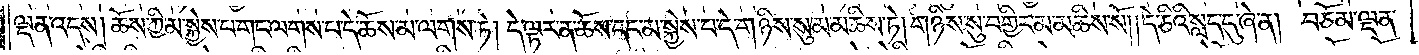ལྡན་འདས། ཆོས་ཀྱི་མ་སྐྱེས་པ་གང་ལགས་པ་དེ་ཆོས་མ་ལགས་ཏེ། དེ་ལྟར་ན་ཆོས་དང་མ་སྐྱེས་པ་དེ་གཉིས་སུ་མ་མཆིས་ཏེ། གཉིས་སུ་བགྱིར་མ་མཆིས་སོ། །དེ་ཅིའི་སླད་དུ་ཞེ་ན། བཅོམ་ལྡན་
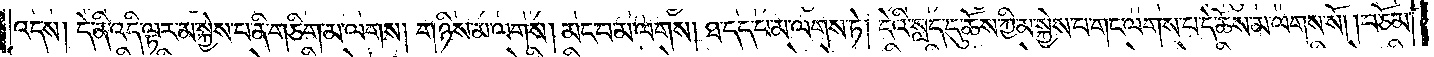འདས། དེ་ནི་འདི་ལྟར་མ་སྐྱེས་པ་ནི་གཅིག་མ་ལགས། གཉིས་མ་ལགས། མང་བ་མ་ལགས། ཐ་དད་པ་མ་ལགས་ཏེ། དེའི་སླད་དུ་ཆོས་ཀྱི་མ་སྐྱེས་པ་གང་ལགས་པ་དེ་ཆོས་མ་ལགས་སོ། །བཅོམ་
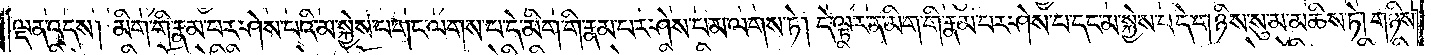ལྡན་འདས། མིག་གི་རྣམ་པར་ཤེས་པའི་མ་སྐྱེས་པ་གང་ལགས་པ་དེ་མིག་གི་རྣམ་པར་ཤེས་པ་མ་ལགས་ཏེ། དེ་ལྟར་ན་མིག་གི་རྣམ་པར་ཤེས་པ་དང་མ་སྐྱེས་པ་དེ་གཉིས་སུ་མ་མཆིས་ཏེ། གཉིས་
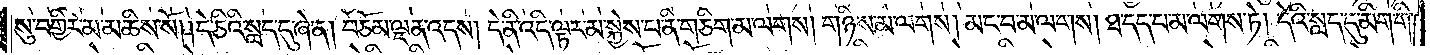སུ་བགྱིར་མ་མཆིས་སོ། །དེ་ཅིའི་སླད་དུ་ཞེ་ན། བཅོམ་ལྡན་འདས། དེ་ནི་འདི་ལྟར་མ་སྐྱེས་པ་ནི་གཅིག་མ་ལགས། གཉིས་མ་ལགས། མང་བ་མ་ལགས། ཐ་དད་པ་མ་ལགས་ཏེ། དེའི་སླད་དུ་མིག་གི་
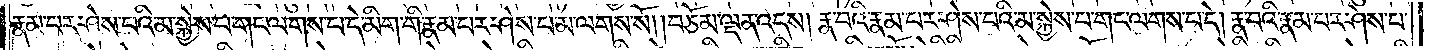རྣམ་པར་ཤེས་པའི་མ་སྐྱེས་པ་གང་ལགས་པ་དེ་མིག་གི་རྣམ་པར་ཤེས་པ་མ་ལགས་སོ། །བཅོམ་ལྡན་འདས། རྣ་བའི་རྣམ་པར་ཤེས་པའི་མ་སྐྱེས་པ་གང་ལགས་པ་དེ། རྣ་བའི་རྣམ་པར་ཤེས་པ་
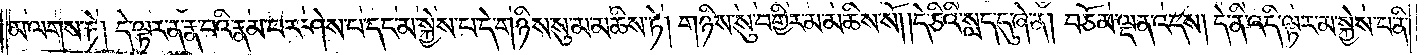མ་ལགས་ཏེ། དེ་ལྟར་ན་རྣ་བའི་རྣམ་པར་ཤེས་པ་དང་མ་སྐྱེས་པ་དེ་གཉིས་སུ་མ་མཆིས་ཏེ། གཉིས་སུ་བགྱིར་མ་མཆིས་སོ། །དེ་ཅིའི་སླད་དུ་ཞེ་ན། བཅོམ་ལྡན་འདས། དེ་ནི་འདི་ལྟར་མ་སྐྱེས་པ་ནི་
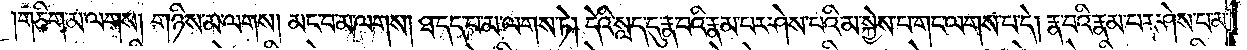གཅིག་མ་ལགས། གཉིས་མ་ལགས། མང་བ་མ་ལགས། ཐ་དད་པ་མ་ལགས་ཏེ། དེའི་སླད་དུ་རྣ་བའི་རྣམ་པར་ཤེས་པའི་མ་སྐྱེས་པ་གང་ལགས་པ་དེ། རྣ་བའི་རྣམ་པར་ཤེས་པ་མ་
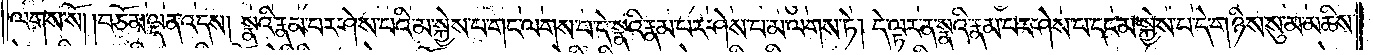ལགས་སོ། །བཅོམ་ལྡན་འདས། སྣའི་རྣམ་པར་ཤེས་པའི་མ་སྐྱེས་པ་གང་ལགས་པ་དེ་སྣའི་རྣམ་པར་ཤེས་པ་མ་ལགས་ཏེ། དེ་ལྟར་ན་སྣའི་རྣམ་པར་ཤེས་པ་དང་མ་སྐྱེས་པ་དེ་གཉིས་སུ་མ་མཆིས་
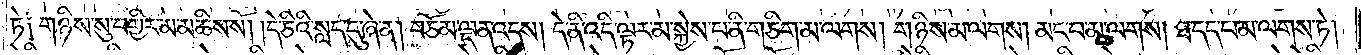ཏེ༑ གཉིས་སུ་བགྱིར་མ་མཆིས་སོ། །དེ་ཅིའི་སླད་དུ་ཞེ་ན། བཅོམ་ལྡན་འདས། དེ་ནི་འདི་ལྟར་མ་སྐྱེས་པ་ནི་གཅིག་མ་ལགས། གཉིས་མ་ལགས། མང་བ་མ་ལགས། ཐ་དད་པ་མ་ལགས་ཏེ།
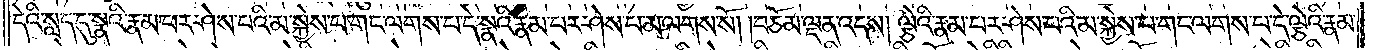དེའི་སླད་དུ་སྣའི་རྣམ་པར་ཤེས་པའི་མ་སྐྱེས་པ་གང་ལགས་པ་དེ་སྣའི་རྣམ་པར་ཤེས་པ་མ་ལགས་སོ། །བཅོམ་ལྡན་འདས། ལྕེའི་རྣམ་པར་ཤེས་པའི་མ་སྐྱེས་པ་གང་ལགས་པ་དེ་ལྕེའི་རྣམ་
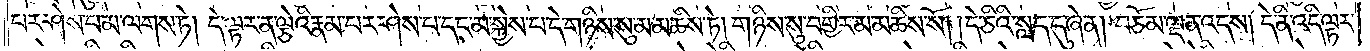པར་ཤེས་པ་མ་ལགས་ཏེ། དེ་ལྟར་ན་ལྕེའི་རྣམ་པར་ཤེས་པ་དང་མ་སྐྱེས་པ་དེ་གཉིས་སུ་མ་མཆིས་ཏེ། གཉིས་སུ་བགྱིར་མ་མཆིས་སོ། །དེ་ཅིའི་སླད་དུ་ཞེ་ན། བཅོམ་ལྡན་འདས། དེ་ནི་འདི་ལྟར་
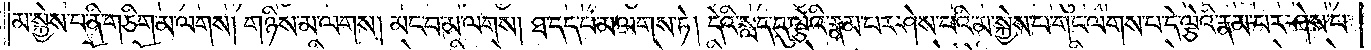མ་སྐྱེས་པ་ནི་གཅིག་མ་ལགས། གཉིས་མ་ལགས། མང་བ་མ་ལགས། ཐ་དད་པ་མ་ལགས་ཏེ། དེའི་སླད་དུ་ལྕེའི་རྣམ་པར་ཤེས་པའི་མ་སྐྱེས་པ་གང་ལགས་པ་དེ་ལྕེའི་རྣམ་པར་ཤེས་པ་
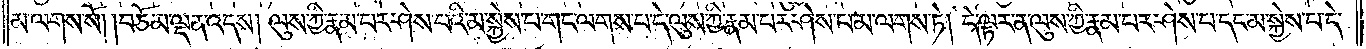མ་ལགས་སོ། །བཅོམ་ལྡན་འདས། ལུས་ཀྱི་རྣམ་པར་ཤེས་པའི་མ་སྐྱེས་པ་གང་ལགས་པ་དེ་ལུས་ཀྱི་རྣམ་པར་ཤེས་པ་མ་ལགས་ཏེ། དེ་ལྟར་ན་ལུས་ཀྱི་རྣམ་པར་ཤེས་པ་དང་མ་སྐྱེས་པ་དེ་
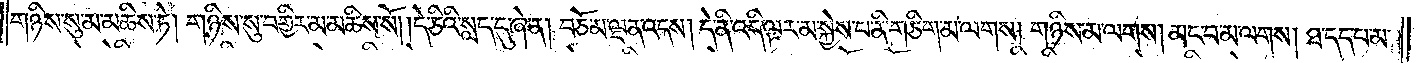གཉིས་སུ་མ་མཆིས་ཏེ། གཉིས་སུ་བགྱིར་མ་མཆིས་སོ། །དེ་ཅིའི་སླད་དུ་ཞེ་ན། བཅོམ་ལྡན་འདས། དེ་ནི་འདི་ལྟར་མ་སྐྱེས་པ་ནི་གཅིག་མ་ལགས། གཉིས་མ་ལགས། མང་བ་མ་ལགས། ཐ་དད་པ་མ་
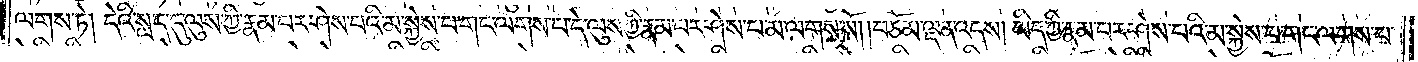ལགས་ཏེ། དེའི་སླད་དུ་ལུས་ཀྱི་རྣམ་པར་ཤེས་པའི་མ་སྐྱེས་པ་གང་ལགས་པ་དེ་ལུས་ཀྱི་རྣམ་པར་ཤེས་པ་མ་ལགས་སོ། །བཅོམ་ལྡན་འདས། ཡིད་ཀྱི་རྣམ་པར་ཤེས་པའི་མ་སྐྱེས་པ་གང་ལགས་པ་
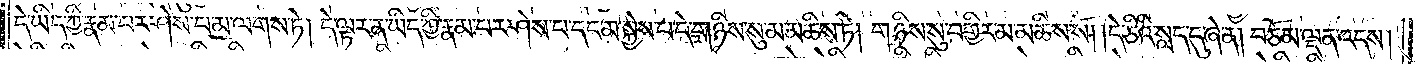དེ་ཡིད་ཀྱི་རྣམ་པར་ཤེས་པ་མ་ལགས་ཏེ། དེ་ལྟར་ན་ཡིད་ཀྱི་རྣམ་པར་ཤེས་པ་དང་མ་སྐྱེས་པ་དེ་གཉིས་སུ་མ་མཆིས་ཏེ། གཉིས་སུ་བགྱིར་མ་མཆིས་སོ། །དེ་ཅིའི་སླད་དུ་ཞེ་ན། །བཅོམ་ལྡན་འདས།
